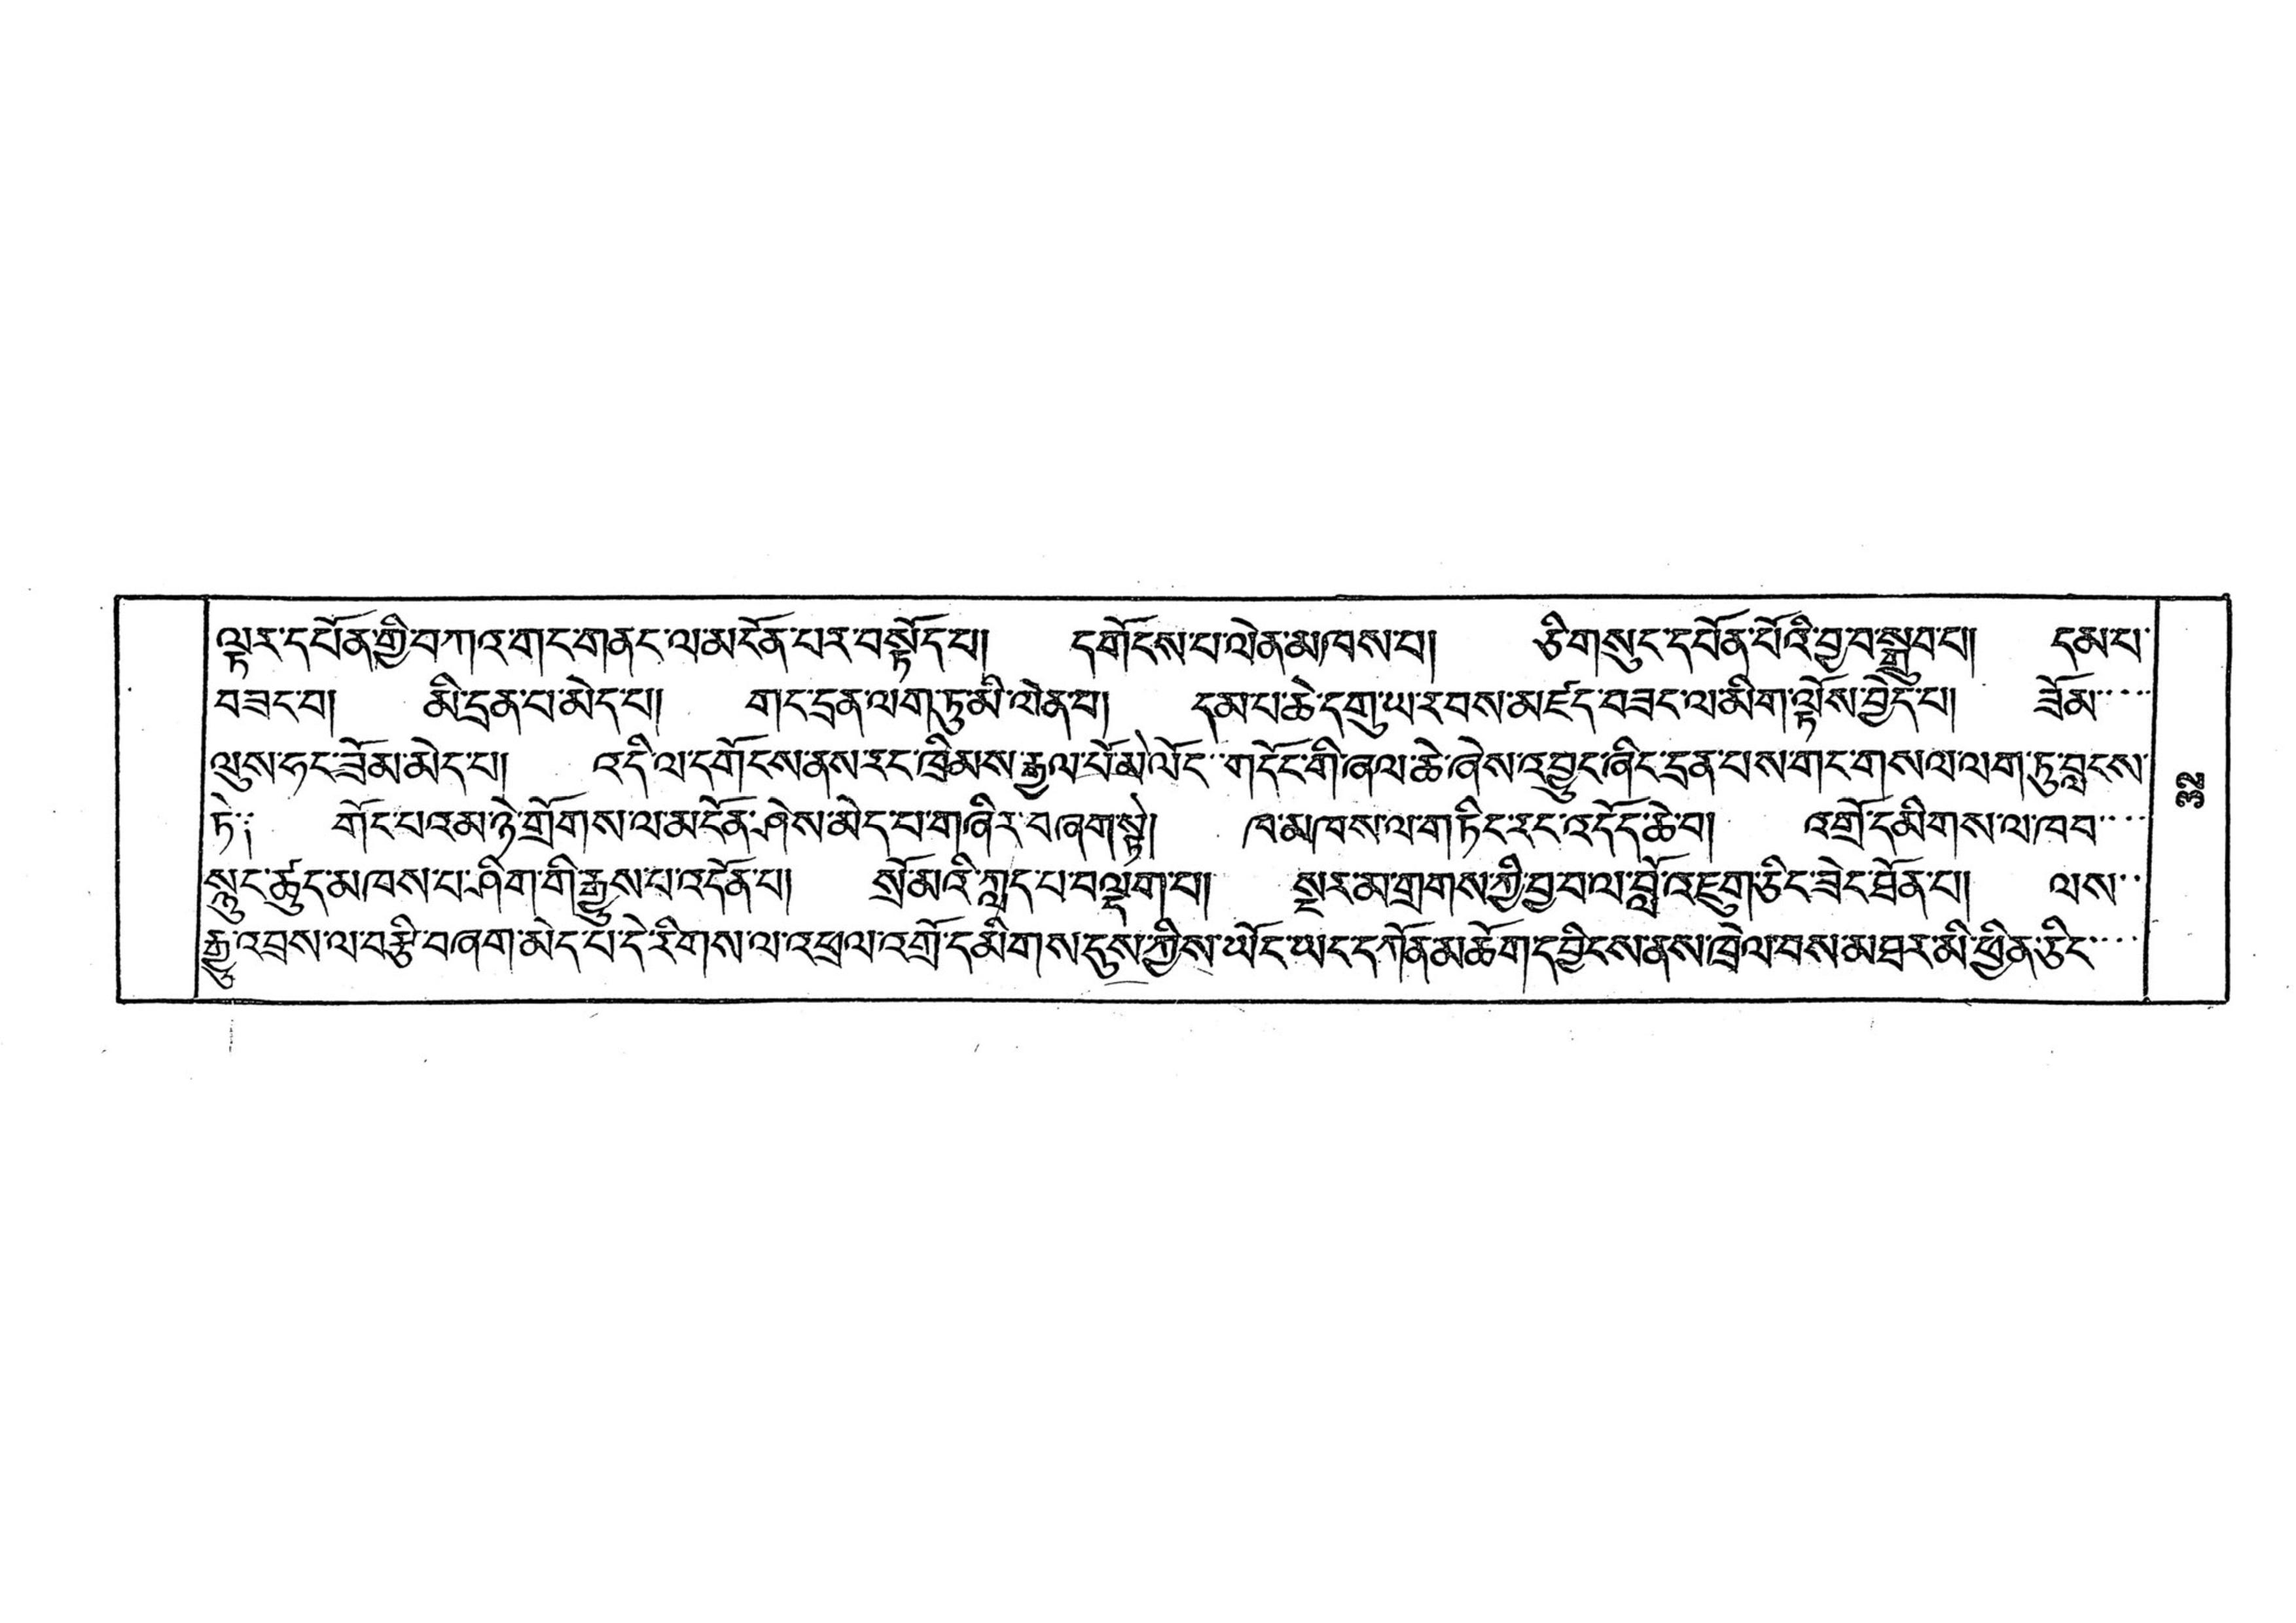ལྟར་དཔོན་གྱི་བཀའ་གང་གནང་ལ་མངོན་པར་བསྟོད་པ། དགོངས་པ་ལེན་མཁས་པ། ཅིག་སུང་དཔོན་པོའི་བྱབ་སྒྲུབ་པ། དམ་པ་
བཟང་བ། མི་དྲན་པ་མེད་པ། གང་དྲན་ལག་ཏུ་མི་ལེན་པ། དམ་པ་ཆེ་དགུ་ཝ་རབས་མཛད་བཟང་ལ་མིག་ལྟོས་བྱེད་པ། ཟོམ་་་་
ལུས་ཧང་ཟོམ་མེད་པ། འདི་ལ་དགོངས་ནས་རང་ཁྲིམས་རྒྱལ་པོ་མེ་ལོང་་གདོང་གི་ཞལ་ཆེ་ཞེས་འབྱུང་ཞིང་དྲན་པས་གང་གསལ་ལག་ཏུ་བླངས་
ཏེ༑ གོང་པའམ་ཉེ་གྲོགས་ལ་མངོན་ཤེས་མེད་པ་གཞིར་བཞག་སྟེ། ཁ་མཁས་ལ་གཏིང་རང་འདོད་ཆེ་བ། འགྲོ་དམིགས་ལ་ཁབ་་་་
སྙུང་ཚུད་མཁས་པ་ཤིག་གི་རྒྱུས་པ་འདོན་པ། སྲོ་མའི་སླད་པ་བལྡག་པ། སྔར་མ་གྲགས་ཀྱི་བྱ་བ་ལ་བློ་འཇུག་ཅིང་ཟེང་ཐོན་པ། ལས་་
རྒྱུ་འབྲས་ལ་བརྩི་བཞག་མེད་པོ་དེ་རིགས་ལ་འཕྲལ་འགྲོ་དམིགས་དུས་ཀྱིས་ཡོང་ཡང་དཀོན་མཆོག་དབྱིངས་ནས་ཁྲེལ་བས་མཐར་མི་ཕྱིན་ཅིང་་་་
